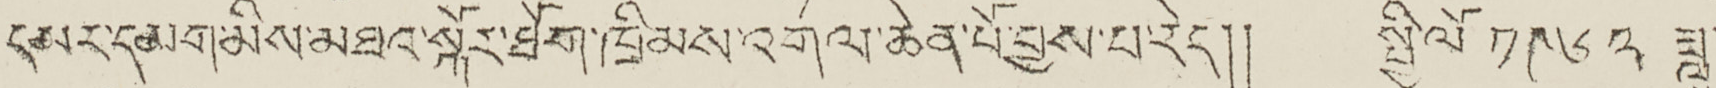དམར་དམག་མིས་མཐའ་སྐོར་ཐོག་ཁྲིམས་འགལ་ཆེན་པོ་བྱས་པ་རེད།། སྤྱི་ལོ་ ༡༩༦༢ ཟླ་
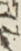༩
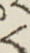༨
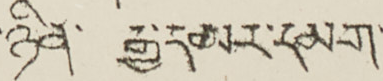ཉིན་ རྒྱ་དམར་དམག་
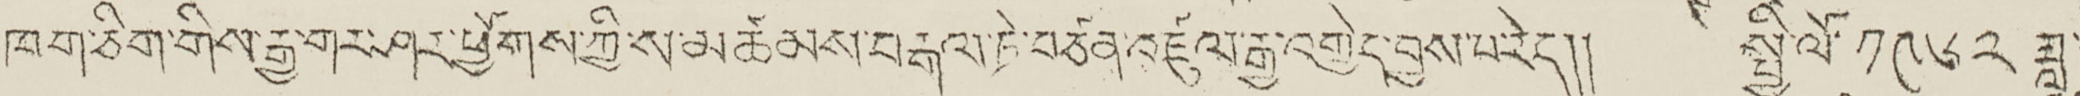ཁག་ཅིག་གིས་རྒྱ་གར་ཤར་ཕྱོགས་ཀྱི་མ་མཚམས་བརྒལ་ཏེ་བཙན་འཛུལ་རྒྱ་འགྱེད་བྱས་པ་རེད།། སྤྱི་ལོ་ ༡༩༦༢ ཟླ་
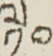༡༠
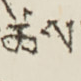ཚེས་
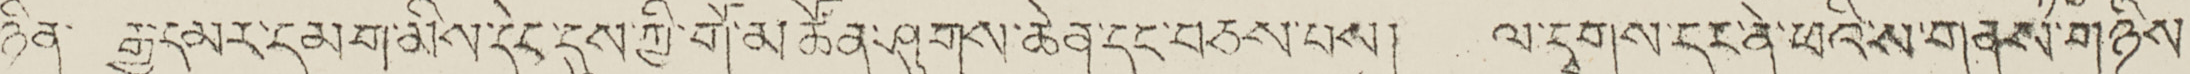ཉིན་ རྒྱ་དམར་དམག་མིས་དེང་དུས་ཀྱི་གོ་མཚོན་ཤུགས་ཆེན་དང་བཅས་པས། ལ་དྭགས་དར་ནེ་ཕའི་ས་གནས་གཉིས་
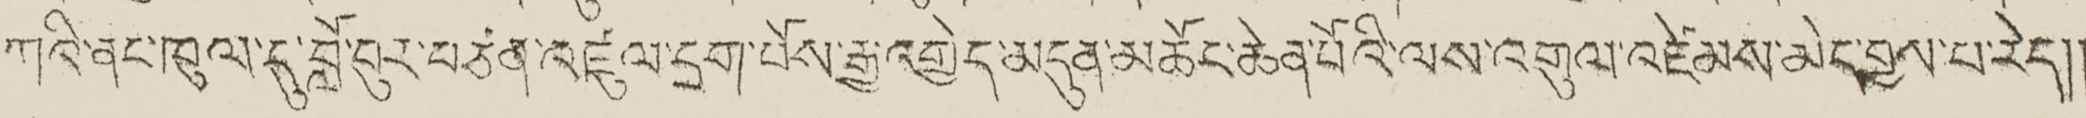ཀའི་ནང་ཁུལ་དུ་བློ་བུར་བཙན་འཛུལ་དྲག་པོས་རྒྱ་འགྱེད་མདུན་མཆོང་ཆེན་པོའི་ལས་འགུལ་འཛེམས་མེད་བྱས་པ་རེད།།
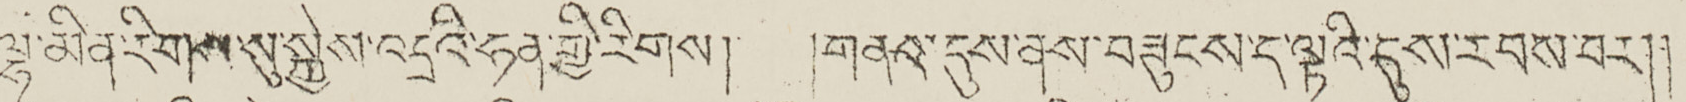ལྷ་མིན་རིགས་སུ་སྐྱེས་འདྲའི་ཧན་གྱི་རིགས། །གནའ་དུས་ནས་བཟུངས་ད་ལྟའི་དུས་རབས་བར།།
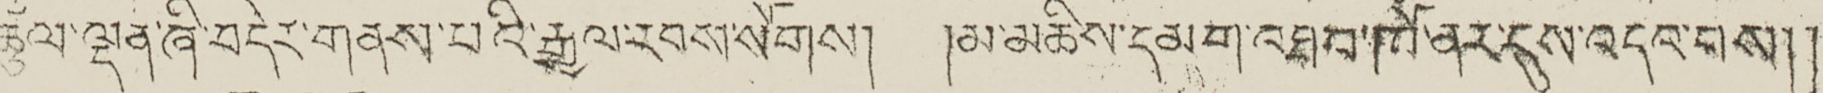ཚུལ་ལྡན་ཞི་བདེར་གནས་པའི་རྒྱལ་རབས་སོགས། །མ་མཆིས་དམག་འཐབ་ཁོ་ནར་དུས་འདའ་བས།།
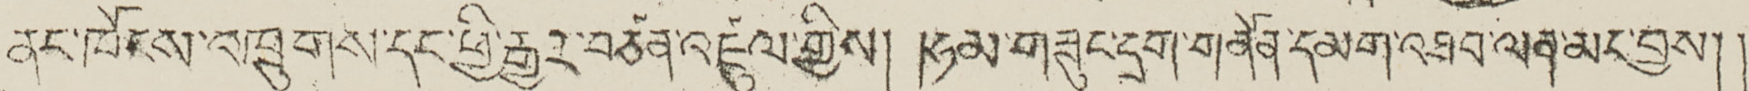ནང་ཁོངས་འཁྲུགས་དང་ཕྱི་རྒྱར་བཙན་འཛུལ་གྱིས། །ཧམ་གཟུང་དྲག་གནོན་དམག་འཐབ་ལན་མང་བྱས།།
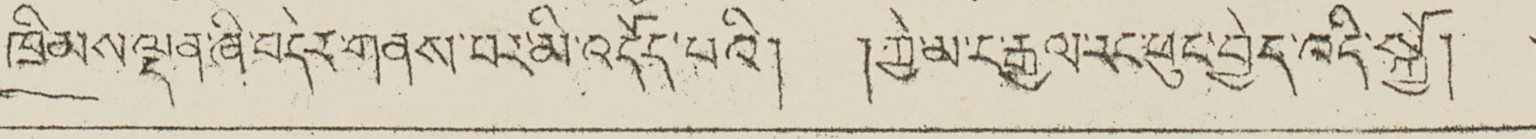ཁྲིམས་ལྡན་ཞི་བདེར་གནས་པར་མི་འདོད་པའི། །ཀྱེ་མ་ང་རྒྱལ་རང་ཕུང་བྱེད་འདི་སྐྱོ། །
